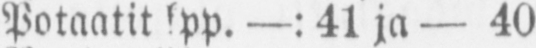Potaatit lpp. —: 41 ja — 40
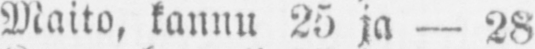Maito, kannu 25 ja — 28
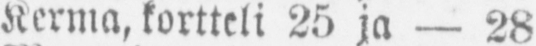Kerma, kortteli 25 ja — 28
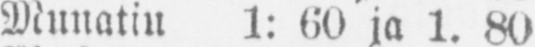Munatiu 1: 60 ja 1. 80
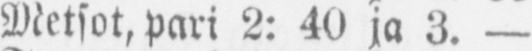Metsot, pari 2: 40 ja 3.—
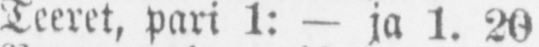Teeret pari 1: — ja 1. 20
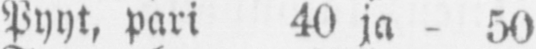Pyyt, pari 40 ja - 50
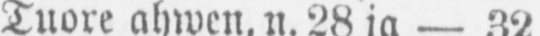Tuore ahwen.n. 28 ja-32
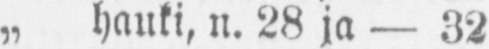„ hauki, n. 28 ja — 32
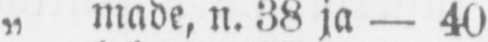„ made, n. 38 ja — 40
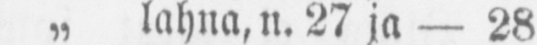„ lahna, n. 27 ja—28
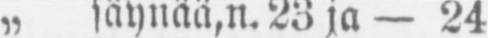„ säynää,n.23 ja-24
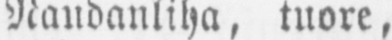Naudanliha tuore,
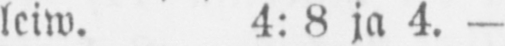leiw. 4: 8 ja 4.—
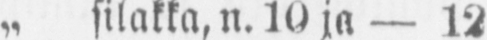„ silakka, n. 10 ja— 12
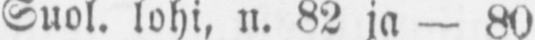Suol. lohi, n. 82 ja — 80
